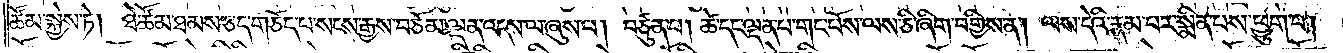ཚོམ་སྐྱེས་ཏེ། ཐེ་ཚོམ་ཐམས་ཅད་གཅོད་པ་སངས་རྒྱས་བཅོམ་ལྡན་འདས་ལ་ཞུས་པ། བཙུན་པ། ཚེ་དང་ལྡན་པ་གང་པོས་ལས་ཅི་ཞིག་བགྱིས་ན། ལས་དེའི་རྣམ་པར་སྨིན་པས་ཕྱུག་པ།
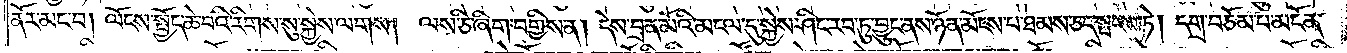ནོར་མང་བ། ལོངས་སྤྱོད་ཆེ་བའི་རིགས་སུ་སྐྱེས་ལགས། ལས་ཅི་ཞིག་བགྱིས་ན། དེས་བྲན་མོའི་མངལ་དུ་སྐྱེས་ཤིང་རབ་ཏུ་བྱུང་ནས་ཉོན་མོངས་པ་ཐམས་ཅད་སྤངས་ཏེ། དགྲ་བཅོམ་པ་མངོན་
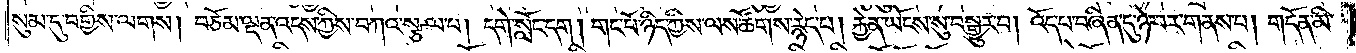སུམ་དུ་བགྱིས་ལགས། བཅོམ་ལྡན་འདས་ཀྱིས་བཀའ་སྩལ་པ། དགེ་སློང་དག །གང་པོ་ཉིད་ཀྱིས་ལས་ཚོགས་རྙེད་པ། རྐྱེན་ཡོངས་སུ་བསྒྱུར་བ། འོད་པ་བཞིན་དུ་ཉེ་བར་གནས་པ། གདོན་མི་
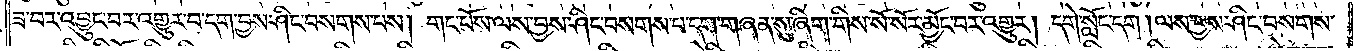ཟ་བར་འབྱུང་བར་འགྱུར་བ་དག་བྱས་ཤིང་བསགས་པས། གང་པོས་ལས་བྱས་ཤིང་བསགས་པ་དག་གཞན་སུ་ཞིག་གིས་སོ་སོར་མྱོང་བར་འགྱུར། དགེ་སློང་དག །ལས་བྱས་ཤིང་བསགས་
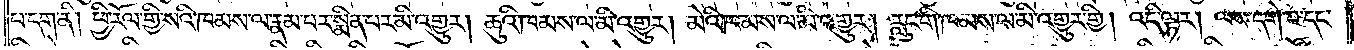པ་དག་ནི། ཕྱི་རོལ་གྱི་སའི་ཁམས་ལ་རྣམ་པར་སྨིན་པར་མི་འགྱུར། ཆུའི་ཁམས་ལ་མི་འགྱུར། མེའི་ཁམས་ལ་མི་འགྱུར། རླུང་གི་ཁམས་ལ་མི་འགྱུར་གྱི། འདི་ལྟར། ལས་དགེ་བ་དང་
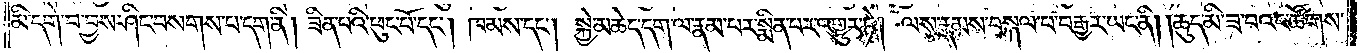མི་དགེ་བ་བྱས་ཤིང་བསགས་པ་དག་ནི། ཟིན་པའི་ཕུང་པོ་དང༌། ཁམས་དང༌། སྐྱེ་མཆེད་དག་ལ་རྣམ་པར་སྨིན་པར་འགྱུར་ཏེ། ལས་རྣམས་བསྐལ་པ་བརྒྱར་ཡང་ནི། །ཆུད་མི་ཟ་བའང་ཚོགས་
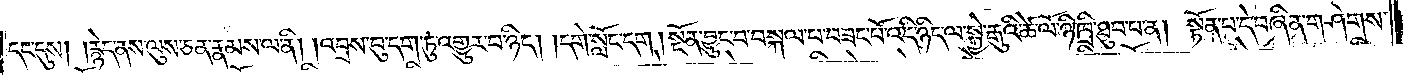དང་དུས། །རྙེད་ནས་ལུས་ཅན་རྣམས་ལ་ནི། །འབྲས་བུ་དག་ཏུ་འགྱུར་བ་ཉིད། །དགེ་སློང་དག །སྔོན་བྱུང་བ་བསྐལ་བ་བཟང་པོ་འདི་ཉིད་ལ་སྐྱེ་རྒུའི་ཚེ་ལོ་ཉི་ཁྲི་ཐུབ་པ་ན། སྟོན་པ་དེ་བཞིན་གཤེགས་
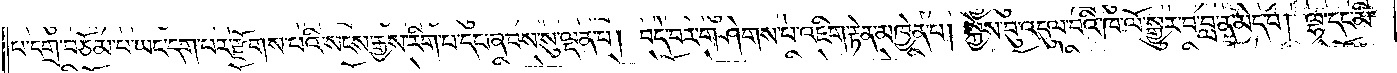པ་དགྲ་བཅོམ་པ་ཡང་དག་པར་རྫོགས་པའི་སངས་རྒྱས་རིག་པ་དང་ཞབས་སུ་ལྡན་པ། བདེ་བར་གཤེགས་པ་འཇིག་རྟེན་མཁྱེན་པ། སྐྱེས་བུ་འདུལ་བའི་ཁ་ལོ་སྒྱུར་བ་བླ་ན་མེད་པ། ལྷ་དང་མི་
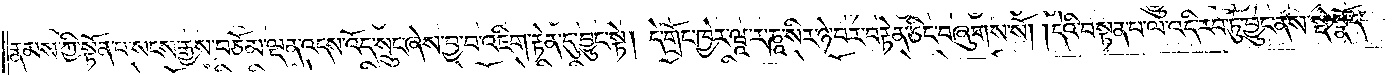རྣམས་ཀྱི་སྟོན་པ་སངས་རྒྱས་བཅོམ་ལྡན་འདས་འོད་སྲུང་ཞེས་བྱ་བ་འཇིག་རྟེན་དུ་བྱུང་སྟེ། དེ་གྲོང་ཁྱེར་ཝཱ་ར་ཎཱ་སིར་ཉེ་བར་བརྟེན་ཅིང་བཞུགས་སོ། །དེའི་བསྟན་པ་ལ་འདི་རབ་ཏུ་བྱུང་ནས་སྡེ་སྣོད་
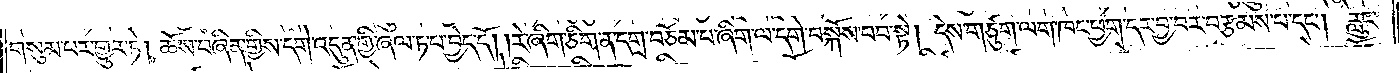གསུམ་པར་གྱུར་ཏེ། ཆོས་བཞིན་གྱིས་དགེ་འདུན་གྱི་ཞལ་ཏ་པ་བྱེད་དོ། །རེ་ཞིག་ཅིག་ན་དགྲ་བཅོམ་པ་ཞིག་ལ་དགེ་བསྐོས་བབ་སྟེ། དེས་གཙུག་ལག་ཁང་ཕྱག་དར་བྱ་བར་བརྩམས་པ་དང༌། རླུང་
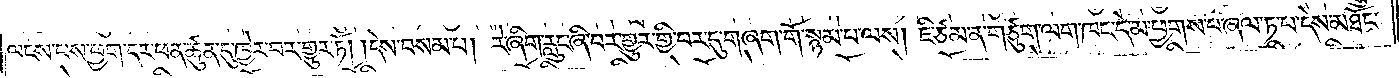ལངས་པས་ཕྱག་དར་ཕན་ཚུན་དུ་ཁྱེར་བར་གྱུར་ཏོ། །དེས་བསམ་པ། རེ་ཞིག་རླུང་ཞི་བར་གྱུར་གྱི་བར་དུ་གཞག་གོ་སྙམ་པ་ལས། ཇི་ཙམ་ན་གཙུག་ལག་ཁང་དེ་མ་ཕྱགས་པ་ཞལ་ཏ་པ་དེས་མཐོང་
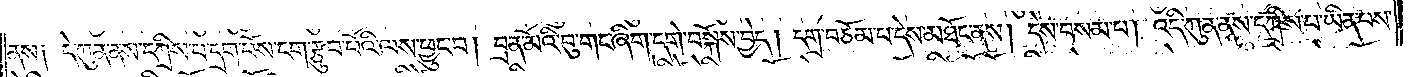ནས༑ དེ་ཀུན་ནས་དཀྲིས་པ་དྲག་པོས་ངག་རྩུབ་པོའི་ལས་ཕྱུང་བ། བྲན་མོའི་བུ་གང་ཞིག་དགེ་བསྐོས་བྱེད། དགྲ་བཅོམ་པ་དེས་མཐོང་ནས། དེས་བསམ་པ། འདི་ཀུན་ནས་དཀྲིས་པ་ཡིན་པས་
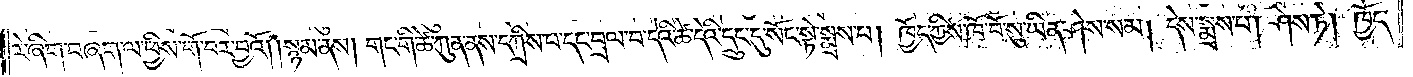རེ་ཞིག་བཞག་ལ་ཕྱིས་གོ་བར་བྱའོ། །སྙམ་ནས། གང་གི་ཚེ་ཀུན་ནས་དཀྲིས་པ་དང་བྲལ་བ་དེའི་ཚེ་དེའི་དྲུང་དུ་སོང་སྟེ་སྨྲས་པ། ཁྱོད་ཀྱིས་ཁོ་བོ་སུ་ཡིན་ཤེས་སམ། དེས་སྨྲས་པ། ཤེས་ཏེ། ཁྱོད་
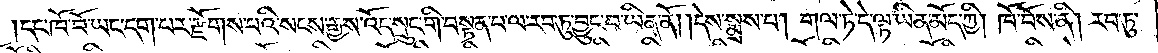དང་ཁོ་བོ་ཡང་དག་པར་རྫོགས་པའི་སངས་རྒྱས་འོད་སྲུང་གི་བསྟན་པ་ལ་རབ་ཏུ་བྱུང་བ་ཡིན་ནོ། །དེས་སྨྲས་པ། གལ་ཏེ་དེ་ལྟ་ཡིན་མོད་ཀྱི། ཁོ་བོས་ནི། རབ་ཏུ་
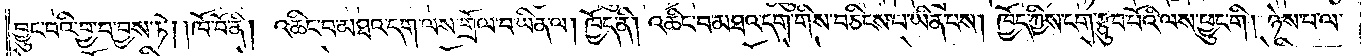བྱུང་བའི་བྱ་བ་བྱས་ཏེ། །ཁོ་བོ་ནི། འཆིང་བ་མཐའ་དག་ལས་གྲོལ་བ་ཡིན་ལ། ཁྱོད་ནི། འཆིང་བ་མཐའ་དག་གིས་བཅིངས་པ་ཡིན་པས། ཁྱོད་ཀྱིས་ངག་རྩུབ་པོའི་ལས་ཕྱུང་གི། ཉེས་པ་ལ་
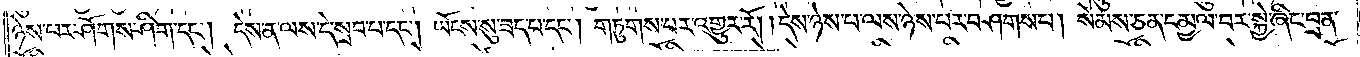ཉེས་པར་ཤོགས་ཤིག་དང༌། དེས་ན་ལས་དེ་སྲབ་པ་དང༌། ཡོངས་སུ་ཟད་པ་དང༌། གཏུགས་པར་འགྱུར་རོ། །དེས་ཉེས་པ་ལས་ཉེས་པར་བཤགས་པ། སེམས་ཅན་དམྱལ་བར་སྐྱེ་ཞིང་བྲན་
